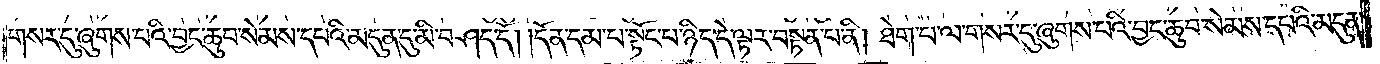གསར་དུ་ཞུགས་པའི་བྱང་ཆུབ་སེམས་དཔའི་མདུན་དུ་མི་བཤད་དོ། །དོན་དམ་པ་སྟོང་པ་ཉིད་དེ་ལྟར་བསྟན་པ་ནི། ཐེག་པ་ལ་གསར་དུ་ཞུགས་པའི་བྱང་ཆུབ་སེམས་དཔའི་མདུན་
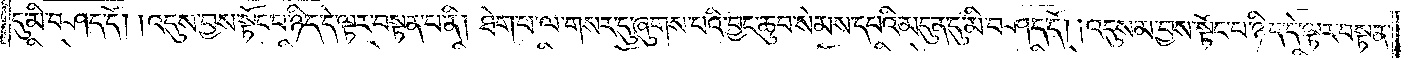དུ་མི་བཤད་དོ། །འདུས་བྱས་སྟོང་པ་ཉིད་དེ་ལྟར་བསྟན་པ་ནི། ཐེག་པ་ལ་གསར་དུ་ཞུགས་པའི་བྱང་ཆུབ་སེམས་དཔའི་མདུན་དུ་མི་བཤད་དོ། །འདུས་མ་བྱས་སྟོང་པ་ཉིད་དེ་ལྟར་བསྟན་
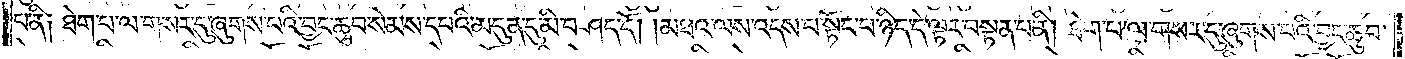པ་ནི༑ ཐེག་པ་ལ་གསར་དུ་ཞུགས་པའི་བྱང་ཆུབ་སེམས་དཔའི་མདུན་དུ་མི་བཤད་དོ། །མཐའ་ལས་འདས་པ་སྟོང་པ་ཉིད་དེ་ལྟར་བསྟན་པ་ནི། ཐེག་པ་ལ་གསར་དུ་ཞུགས་པའི་བྱང་ཆུབ་
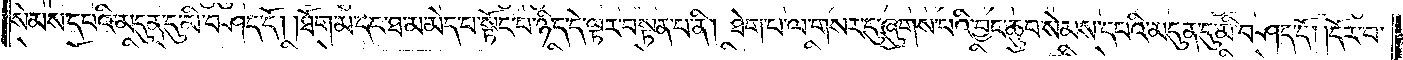སེམས་དཔའི་མདུན་དུ་མི་བཤད་དོ། །ཐོག་མ་དང་ཐ་མ་མེད་པ་སྟོང་པ་ཉིད་དེ་ལྟར་བསྟན་པ་ནི། ཐེག་པ་ལ་གསར་དུ་ཞུགས་པའི་བྱང་ཆུབ་སེམས་དཔའི་མདུན་དུ་མི་བཤད་དོ། །དོར་བ་
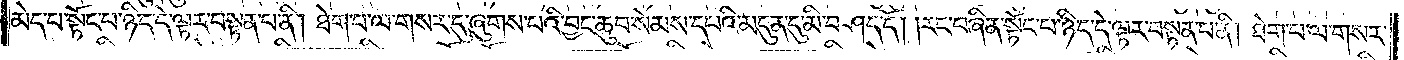མེད་པ་སྟོང་པ་ཉིད་དེ་ལྟར་བསྟན་པ་ནི། ཐེག་པ་ལ་གསར་དུ་ཞུགས་པའི་བྱང་ཆུབ་སེམས་དཔའི་མདུན་དུ་མི་བཤད་དོ། །རང་བཞིན་སྟོང་པ་ཉིད་དེ་ལྟར་བསྟན་པ་ནི། ཐེག་པ་ལ་གསར་
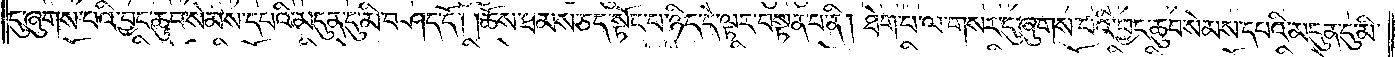དུ་ཞུགས་པའི་བྱང་ཆུབ་སེམས་དཔའི་མདུན་དུ་མི་བཤད་དོ། །ཆོས་ཐམས་ཅད་སྟོང་པ་ཉིད་དེ་ལྟར་བསྟན་པ་ནི། ཐེག་པ་ལ་གསར་དུ་ཞུགས་པའི་བྱང་ཆུབ་སེམས་དཔའི་མདུན་དུ་མི་
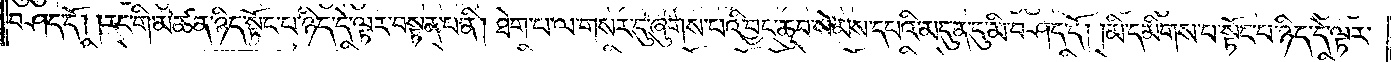བཤད་དོ། །རང་གི་མཚན་ཉིད་སྟོང་པ་ཉིད་དེ་ལྟར་བསྟན་པ་ནི། ཐེག་པ་ལ་གསར་དུ་ཞུགས་པའི་བྱང་ཆུབ་སེམས་དཔའི་མདུན་དུ་མི་བཤད་དོ། །མི་དམིགས་པ་སྟོང་པ་ཉིད་དེ་ལྟར་
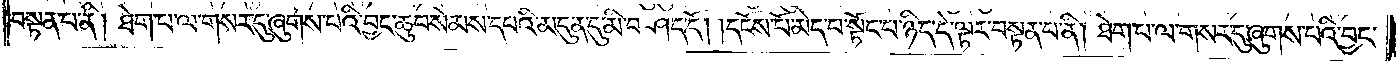བསྟན་པ་ནི། ཐེག་པ་ལ་གསར་དུ་ཞུགས་པའི་བྱང་ཆུབ་སེམས་དཔའི་མདུན་དུ་མི་བཤད་དོ། །དངོས་པོ་མེད་པ་སྟོང་པ་ཉིད་དེ་ལྟར་བསྟན་པ་ནི། ཐེག་པ་ལ་གསར་དུ་ཞུགས་པའི་བྱང་
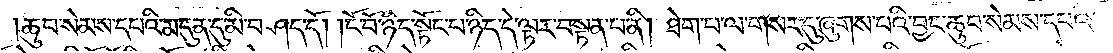ཆུབ་སེམས་དཔའི་མདུན་དུ་མི་བཤད་དོ། །ངོ་བོ་ཉིད་སྟོང་པ་ཉིད་དེ་ལྟར་བསྟན་པ་ནི། ཐེག་པ་ལ་གསར་དུ་ཞུགས་པའི་བྱང་ཆུབ་སེམས་དཔའི་
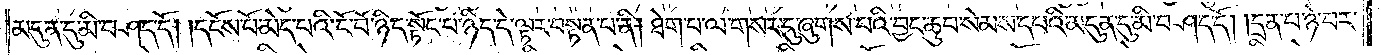མདུན་དུ་མི་བཤད་དོ། །དངོས་པོ་མེད་པའི་ངོ་བོ་ཉིད་སྟོང་པ་ཉིད་དེ་ལྟར་བསྟན་པ་ནི། ཐེག་པ་ལ་གསར་དུ་ཞུགས་པའི་བྱང་ཆུབ་སེམས་དཔའི་མདུན་དུ་མི་བཤད་དོ། །དྲན་པ་ཉེ་བར་
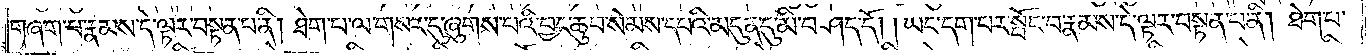གཞག་པ་རྣམས་དེ་ལྟར་བསྟན་པ་ནི། ཐེག་པ་ལ་གསར་དུ་ཞུགས་པའི་བྱང་ཆུབ་སེམས་དཔའི་མདུན་དུ་མི་བཤད་དོ། །ཡང་དག་པར་སྤོང་བ་རྣམས་དེ་ལྟར་བསྟན་པ་ནི། ཐེག་པ་
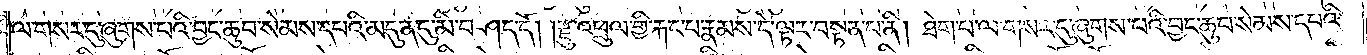ལ་གསར་དུ་ཞུགས་པའི་བྱང་ཆུབ་སེམས་དཔའི་མདུན་དུ་མི་བཤད་དོ། །རྫུ་འཕྲུལ་གྱི་རྐང་པ་རྣམས་དེ་ལྟར་བསྟན་པ་ནི། ཐེག་པ་ལ་གསར་དུ་ཞུགས་པའི་བྱང་ཆུབ་སེམས་དཔའི་
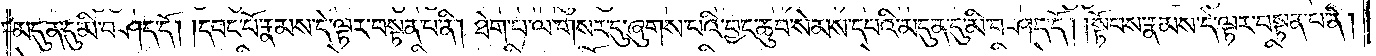མདུན་དུ་མི་བཤད་དོ། །དབང་པོ་རྣམས་དེ་ལྟར་བསྟན་པ་ནི། ཐེག་པ་ལ་གསར་དུ་ཞུགས་པའི་བྱང་ཆུབ་སེམས་དཔའི་མདུན་དུ་མི་བཤད་དོ། །སྟོབས་རྣམས་དེ་ལྟར་བསྟན་པ་ནི།
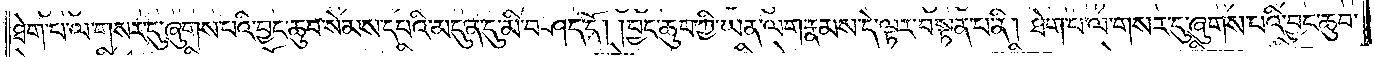ཐེག་པ་ལ་གསར་དུ་ཞུགས་པའི་བྱང་ཆུབ་སེམས་དཔའི་མདུན་དུ་མི་བཤད་དོ། །བྱང་ཆུབ་ཀྱི་ཡན་ལག་རྣམས་དེ་ལྟར་བསྟན་པ་ནི། ཐེག་པ་ལ་གསར་དུ་ཞུགས་པའི་བྱང་ཆུབ་
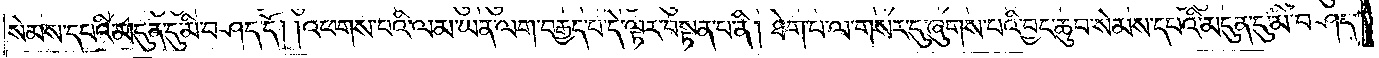སེམས་དཔའི་མདུན་དུ་མི་བཤད་དོ། །འཕགས་པའི་ལམ་ཡན་ལག་བརྒྱད་པ་དེ་ལྟར་བསྟན་པ་ནི། ཐེག་པ་ལ་གསར་དུ་ཞུགས་བའི་བྱང་ཆུབ་སེམས་དཔའི་མདུན་དུ་མི་བཤད་
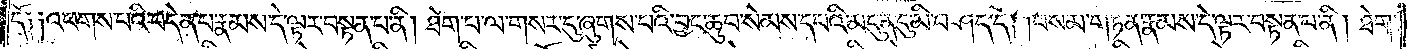དོ༑ ༑འཕགས་པའི་བདེན་པ་རྣམས་དེ་ལྟར་བསྟན་པ་ནི། ཐེག་པ་ལ་གསར་དུ་ཞུགས་པའི་བྱང་ཆུབ་སེམས་དཔའི་མདུན་དུ་མི་བཤད་དོ། །བསམ་གཏན་རྣམས་དེ་ལྟར་བསྟན་པ་ནི། ཐེག་
